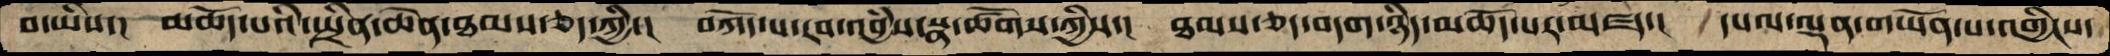བ་ཡིས་།   མཆོད་པའི་སྤྲིན་ཆེན་ཐམས་ཅད་ཀྱི་།  བཀོད་པ་རབ་འབྱཾས་སྣ་ཚོགས་ཀྱིས་།  ཐམས་ཅད་བདག་ཉིད་མཆོད་པར་མཛད་།  དཔལ་ལྡན་གཡོན་པ་འགྱིངས་
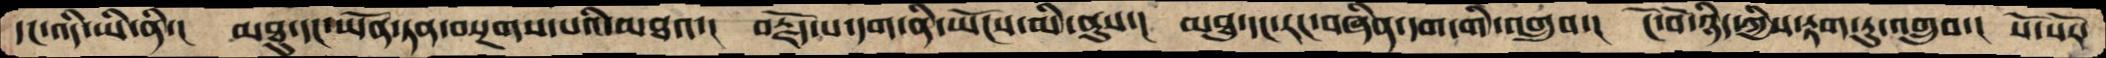དང་འདི་ཡི་ནི་། མཐུ་དང་ཡོན་ཏན་བསྔགས་པའི་མཐའ་།  བརྗོད་པ་དག་ནི་ཡོངས་མི་ནུས་།  མཐུ་དང་རང་བཞིན་དག་གི་འགྲུབ་།  ངོ་བོ་ཉིད་ཀྱིས་རྟག་ཏུ་འགྲུབ་།  སོ་སོར་
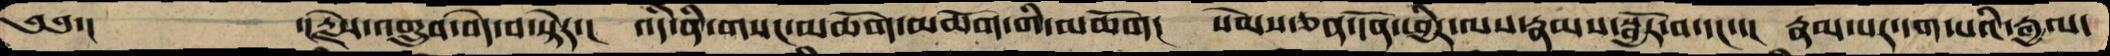༄༅་།     ་།རྗེས་འགྲུབ་བདེ་བ་སྟེར་།  འདི་ནི་གསང་མཆོག་མཆོག་གིས་མཆོག།  སེམས་ཅན་དོན་ཕྱིར་ལས་རྣམས་སྦྱོར་བ་དང་་།  རྣམ་པར་དག་པའི་རྒྱལ་
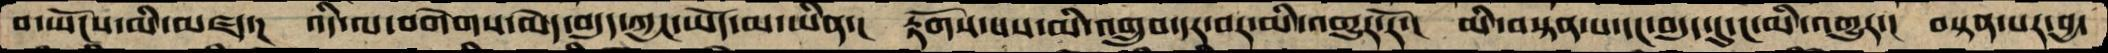བ་ཡོངས་མི་མཛད་།  འདི་ལ་བགེགས་མེད་བདུད་ཀྱང་ཡོད་མ་ཡིན་།  རྟོགས་པས་མི་འགྲུབ་དར་བར་མི་འགྱུར་རོ་། མི་བསྟན་པ་དང་བདུད་དུ་ང་མི་འགྱུར་།  བསྟན་པར་བྱ་
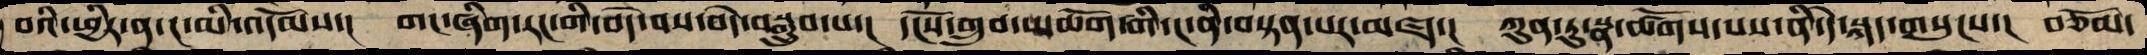བའི་ཕྱིར་ན་ང་མི་འདོམས་།  གང་ཞིག་རང་གི་བདེ་བས་བདེ་བསྒྲུབ་པ་།  དངོས་གྲུབ་མཆོག་གི་ང་ནི་བསྟན་པར་མཛད་།  ཀུན་ཏུ་སྣ་ཚོགས་པས་ནི་དེ་སྐད་གསུངས་།  བཅོམ་
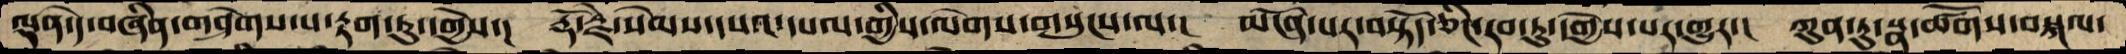ལྡན་དེ་བཞིན་གཤེགས་པ་རྟག་ཏུ་དགྱེས་།  རྡོ་རྗེ་སེམས་དཔའ་དཔལ་གྱིས་ལེགས་གསུངས་ལ་།  མངོན་པར་བསྟོད་ཅིང་རབ་ཏུ་དགྱེས་པར་གྱུར་།  ཀུན་ཏུ་སྣ་ཚོགས་བསྐལ་
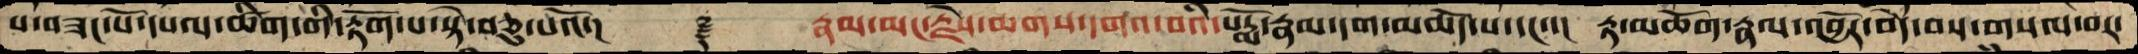པ་བཟང་པོ་དཔལ་ཚིག་གི་རྟོག་པ་སྟེ་བཅུ་པའོ་།    ࿑   རྣམ་མང་རྗེས་ཆགས་དགའ་བའི་པདྨོ་རྣམ་དག་མཆོད་པ་དང་་།  རྟ་མཆོག་རྣལ་འབྱོར་བདེ་བས་གསལ་བར་
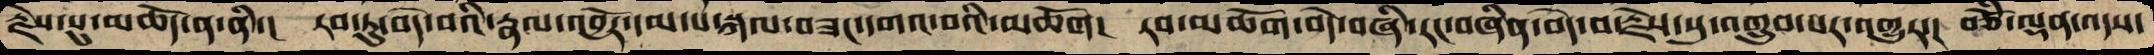རྗེས་སུ་མཆོད་ན་ནི་།  རབ་ཏུ་བདེ་བའི་རྣལ་འབྱོར་དམ་པ་སྐལ་བཟང་དགའ་བའི་མཆོག།  རབ་མཆོག་བདེ་བཞི་རང་བཞིན་བདེ་བ་རྗེས་སུ་འགྲུབ་པར་འགྱུར་།  བཅོཾ་ལྡན་འདས་
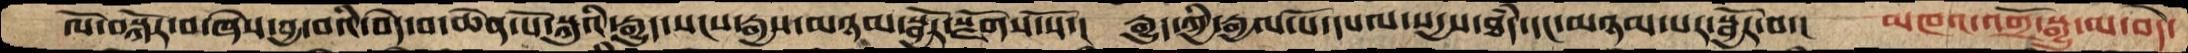ལོ་བསྐོར་བ་ཞེས་བྱ་བའི་བདེ་བ་ཆེན་པོ་སྐུའི་རྒྱུད་སངས་རྒྱས་མཉམ་སྦྱོར་སྫོགས་སོ་།  རྒྱུད་ཀྱི་རྒྱལ་པོ་དཔལ་སདྱས་ཐདཾ་དང་མཉམ་པར་སྦྱོར་བ་།  མཁའ་འགྲོ་སྒྱུ་མ་བདེ་
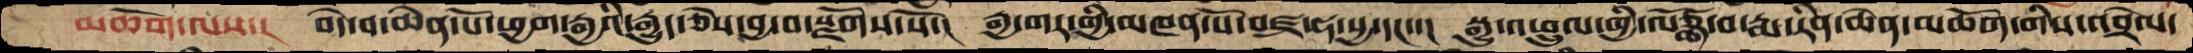མཆོག་ལས་།  བདེ་བ་ཆེན་པོ་ཕྱག་རྒྱའི་རྒྱུད་ཅེས་བྱ་བ་སྫོགས་སོ་།  རྒྱ་གར་གྱི་མཁན་པོ་བཛྲ་ཧ་སྱ་དང་་།  སྒྱུ་འཕྲུལ་གྱི་ལོཙྪ་བ་རྨ་རིན་ཆེན་མཆོག་གིས་འབྲེལ་
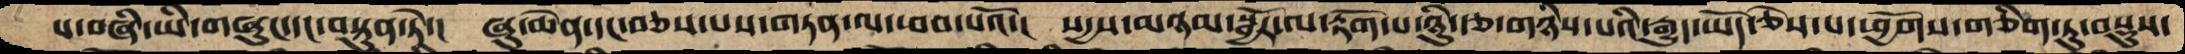པ་བཞི་ཡི་གཞུང་དང་བསྟུན་ཏེ་།  ཞུ་ཆེན་དང་བཅས་པས་གཏན་ལ་ཕབ་པའོ་།  སདྱས་མཉམ་སྦྱོར་ལ་རྟོག་པ་ཉིུ་རྩ་གཉིས་པའི་རྒྱུད་ཡོད་ཅེས་པ་ཕྱོགས་གཅིག་ཏུ་བསྡུས་
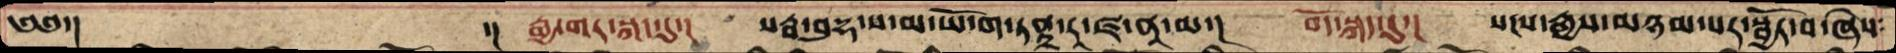༄༅་།                ་།རྒྱ་གར་སྐད་དུ་།  སརྦ་བུདྷ་ས་མ་ཡོ་ག་ཏནྟྲ་རཱ་ཛ་ནཱ་མ་།  བོད་སྐད་དུ་།  སངས་རྒྱས་མཉམ་པར་སྦྱོར་བ་ཞེས་
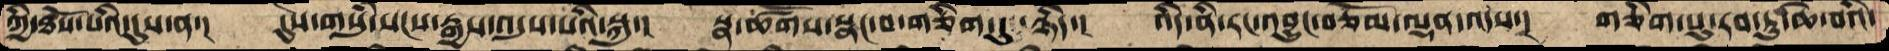ཀྱི་ཐོས་པའི་དུས་ན་།  དུས་གསུམ་སངས་རྒྱས་འདུས་པའི་སྐུ་།  སྣ་ཚོགས་སྣང་བ་གཅིག་དུ་ཉིད་། འདི་ནི་རང་འབྱུང་བཅོམ་ལྡན་འདས་། གཅིག་པུ་རབ་ཏུ་ཆེ་བའི་
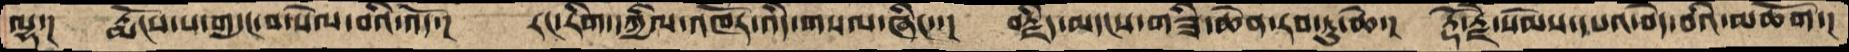ལྷ་།  རྨོངས་པ་གདུང་བ་སེལ་བའི་འོད་།  རང་རིག་དཀྱིལ་འཁོར་འདི་གསལ་ཞིང་་།  བརྗིད་མདངས་གཟི་ཆེན་རབ་ཏུ་ཆེ་།  རྡོ་རྗེ་སེམས་དཔའ་བདེ་བའི་མཆོག་།
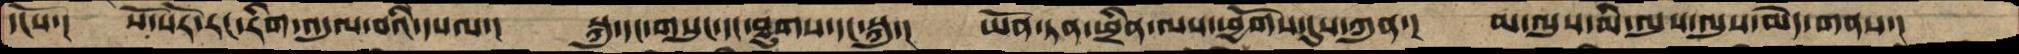དངོས་།  སོ་སོར་རང་རིག་འདུལ་བའི་དཔལ་།  སྐུ་དང་གསུང་དང་ཐུགས་དང་སྐུ་།  ཡོན་ཏན་ཕྲིན་ལས་ཕྱོགས་དུས་ཀུན་།  མ་ལུས་མི་ལུས་ལུས་མེད་གནས་།
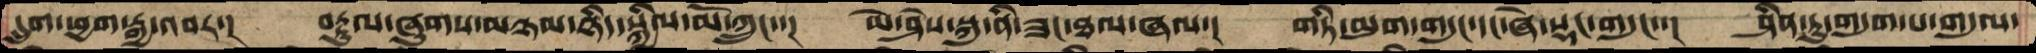དྲུག་ཕྱག་རྒྱ་འབར་།  བརྟུལ་ཞུགས་མཉམ་ཉིད་སྐྱིལ་མོ་ཀྲུང་་།  ཡེ་ཤེས་སྐུ་ནི་ཟང་ཐལ་ཞལ་།  གཏི་མུག་གདུང་དང་ཞེ་སྡང་གདུང་་།  ཤིན་ཏུ་གདུག་པ་གདུལ་
